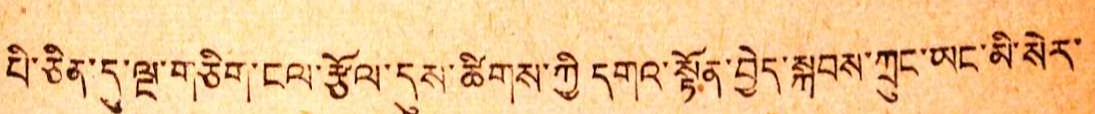པི་ཅིན་དུ་ལྔ་གཅིག་ངལ་རྩོལ་དུས་ཚིགས་ཀྱི དགའ་སྟོན་བྱེད་སྐབས་ཀྲུང་ཡང་མི་སེར་
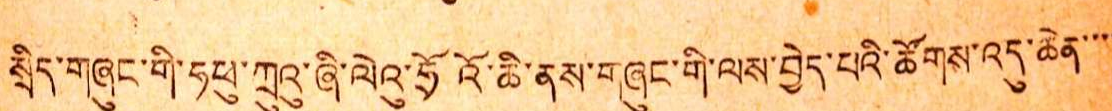སྲིད་གཞུང་གི་ཧཕུ་ཀྲུའུ་ཞི་ལེའུ་ཧྲོའོ་ཆི་ནས་གཞུང་གི་ལས་བྱེད་པའི་ཚོགས་འདུ་ཆེན་་་་
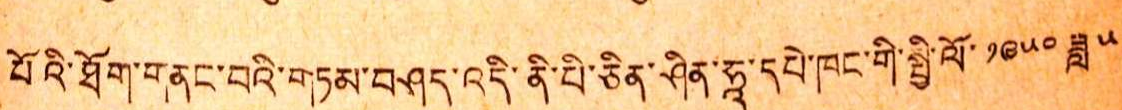པོའི་ཐོག་གནང་བའི་གཏམ་བཤད་འདི་ནི་པི་ཅིན་ཤིན་ཧཱ་དཔེ་ཁང་གི་སྤྱི་ལོ་ ༡༩༥༠ ཟླ་ ༥
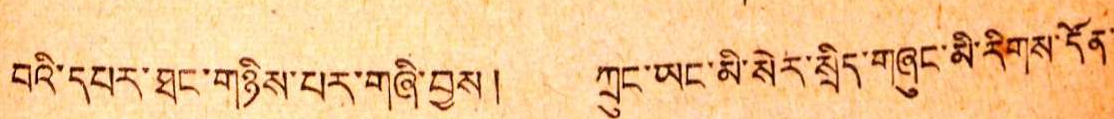བའི་དཔར་ཐང་གཉིས་པར་གཞི་བྱས། ཀྲུང་ཡང་མི་སེར་སྲིད་གཞུང་མི་རིགས་དོན་
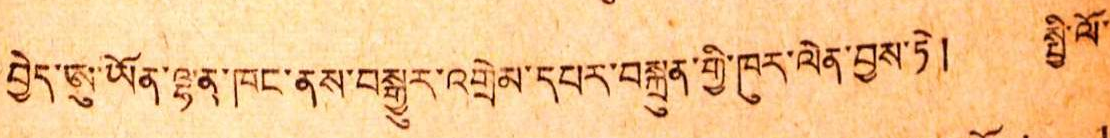བྱེད་ཨུ་ཡོན་ལྷན་ཁང་ནས་བསྒྱུར་འགྲེམ་དཔར་བསྐྲུན་གྱི་ཁུར་ལེན་བྱས་ཏེ། སྤྱི་ལོ་
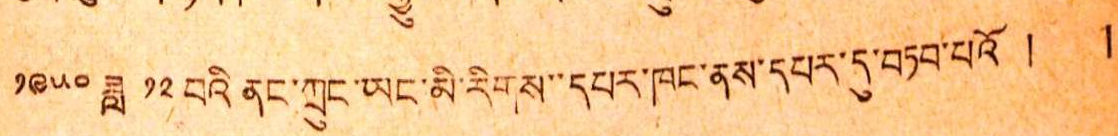༡༩༥༠ ཟླ ༡༢ བའི ནང་ཀྲུང་ཡང་མི་རིགས་་དཔར་ཁང་ནས་དཔར་དུ་བཏབ་པའོ ། །
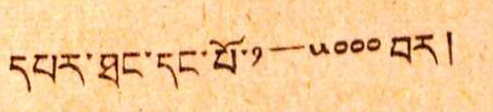དཔར་ཐང་དང་པོ་༡—༥༠༠༠ བར།
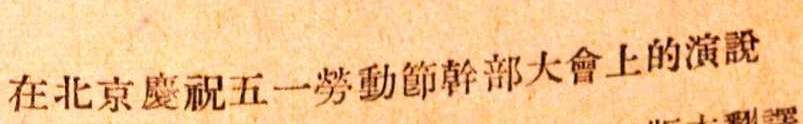在北京慶祝五一勞動節幹部大會上的演說
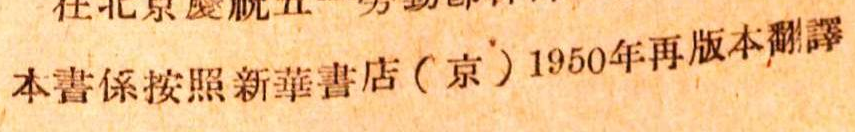本書係按照新華書店（京）1950年再版本翻譯
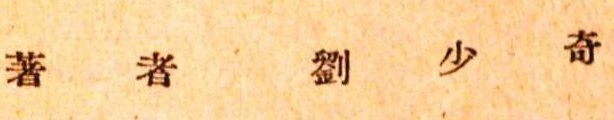著 者 劉 少 奇
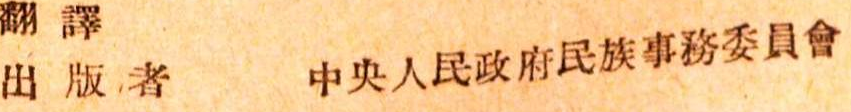出 版 者 中央人民政府民族事務委員會
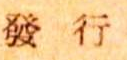發 行
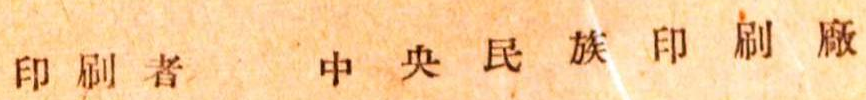印 刷 者 中 央 民 族 印 刷 廠
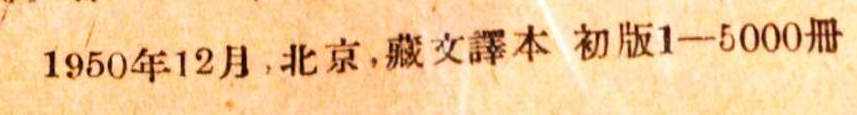1950年12月，北京，藏文譯本 初版1—5000冊
